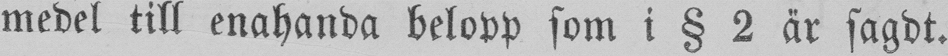medel till enahanda belopp som i § 2 är sagdt.
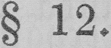§ 12.
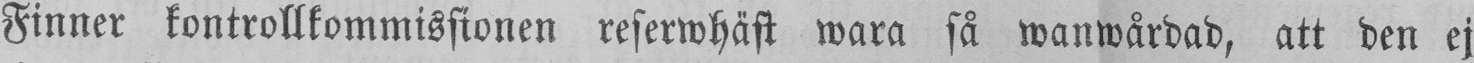Finner kontrollkommissionen reserwhäst wara så wanwårdad, att den ej
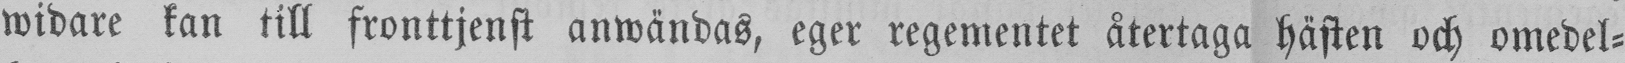widare kan till fronttjenst anwändas, eger regementet återtaga hästen och omedel-
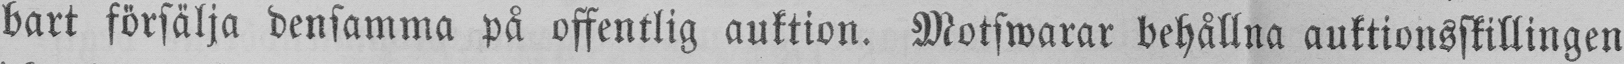bart försälja densamma på offentlig auktion. Motswarar behållna auktionsskillingen
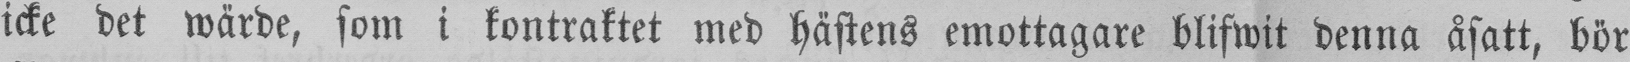icke det wärde, som i kontraktet med hästens emottagare blifwit denna åsatt, bör
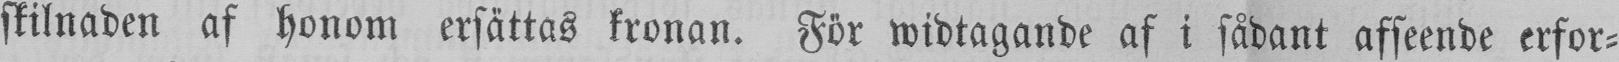skilnaden af honom ersättas kronan. För widtagande af i sådant afseende erfor-
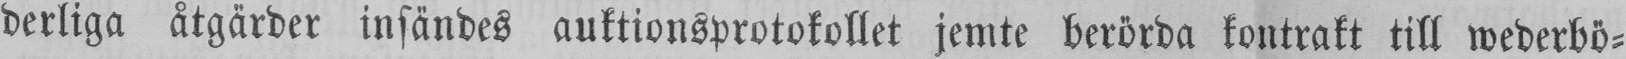derliga åtgärder insändes auktionsprotokollet jemte berörda kontrakt till wederbö-
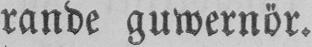rande guwernör.
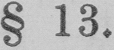§ 13.
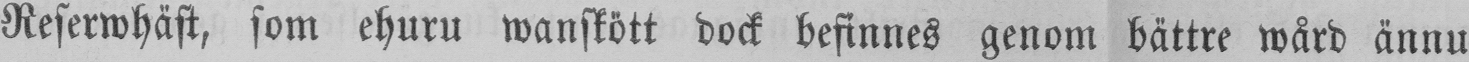Reserwhäst, som ehuru wanskött dock befinnes genom bättre wård ännu
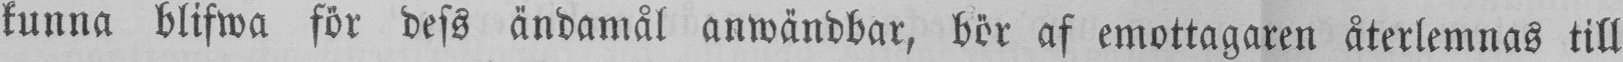kunna blifwa för dess ändamål anwändbar, bör af emottagaren återlemnas till
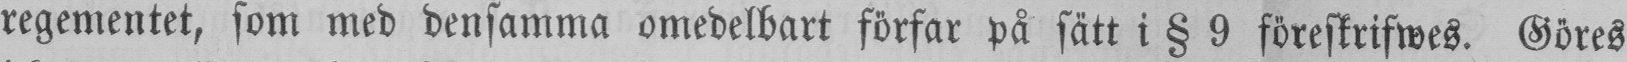regementet, som med densamma omedelbart förfar på sätt i § 9 föreskrifwes. Göres
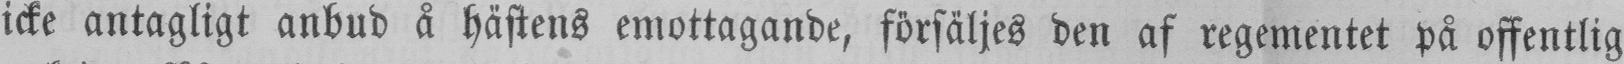icke antagligt anbud å hästens emottagande, försäljes den af regementet på offentlig
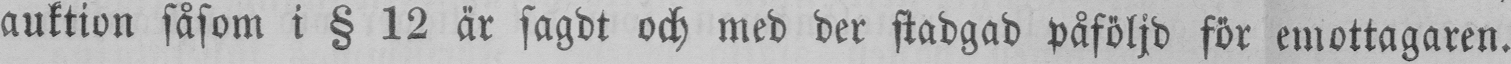auktion såsom i § 12 år sagdt och med der stadgad påföljd för emottagaren.
